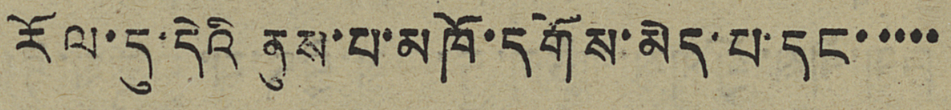རོལ་དུ་དེའི་ནུས་པ་མཁོ་དགོས་མེད་པ་དང་་་་་
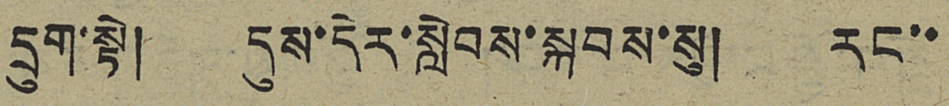དྲུག་སྟེ། དུས་དེར་སླེབས་སྐབས་སུ། རང་་
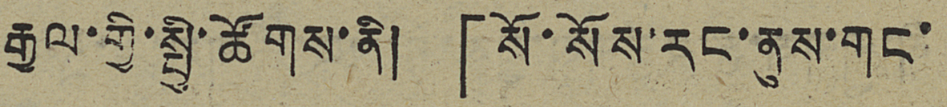རྒྱལ་གྱི་སྤྱི་ཚོགས་ནི།「སོ་སོས་རང་ནུས་གང་
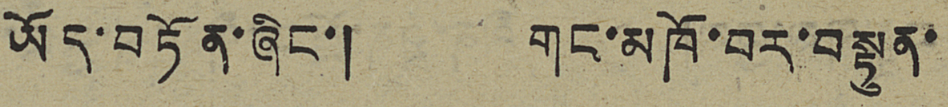ཡོད་བཏོན་ཞིང་། གང་མཁོ་བར་བསྟུན་
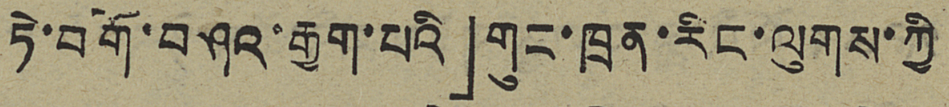ཏེ་བགོ་བཤའ་རྒྱག་པའི་」གུང་ཁྲན་རིང་ལུགས་ཀྱི
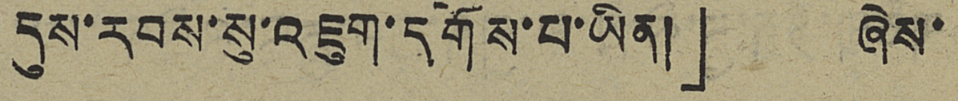དུས་རབས་སུ་འཇུག་དགོས་པཡིན།」 ཞེས་
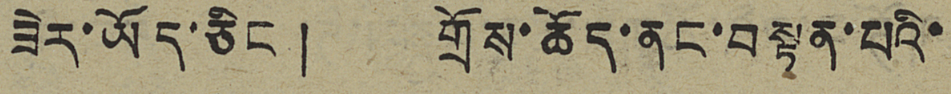ཟེར་ཡོད་ཅིང་། གྲོས་ཆོད་ནང་བསྟན་པའི་
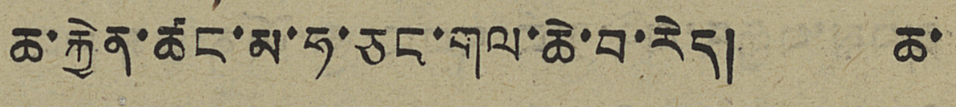ཆ་རྐྱེན་ཚང་མ་ཧ་ཅང་གལ་ཆེ་བ་རེད། ཆ་
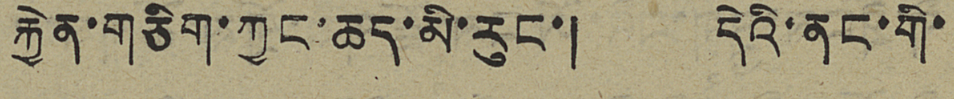རྐྱེན་གཅིག་ཀྱང་ཆད་མི་རུང་། དེའི་ནང་གི་
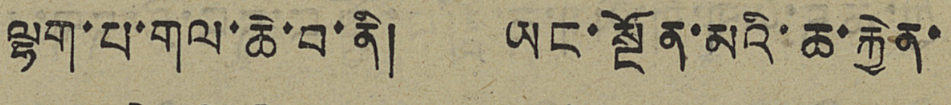ལྷག་པ་གལ་ཆེ་བ་ནི། ཡང་སྔོན་མའི་ཆ་རྐྱེན་
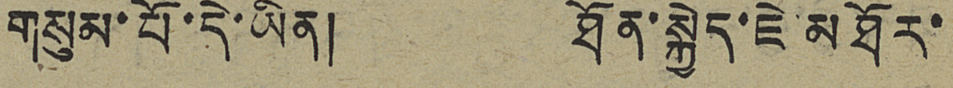གསུམ་པོ་དེ་ཡིན། ཐོན་སྐྱེད་ཇེ་མཐོར་
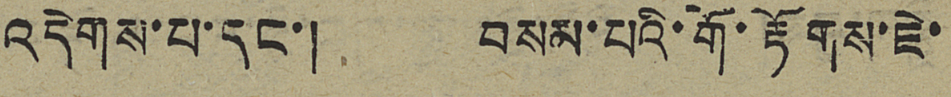འདེགས་པ་དང་། བསམ་པའི་གོ་རྟོགས་ཇེ་
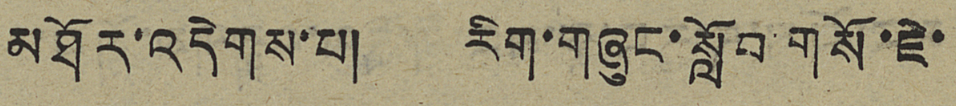མཐོར་འདེགས་པ། རིག་གཞུང་སློབ་གསོ་ཇེ་
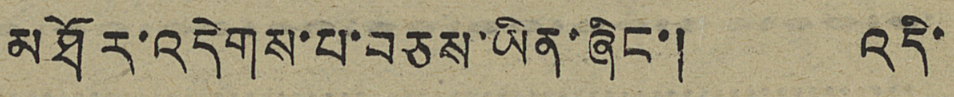མཐོར་འདེགས་པ་བཅས་ཡིན་ཞིང་། འདི་
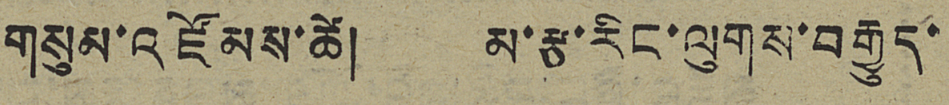གསུམ་འཛོམས་ཚེ། མ་རྩ་རིང་ལུགས་བརྒྱུད་
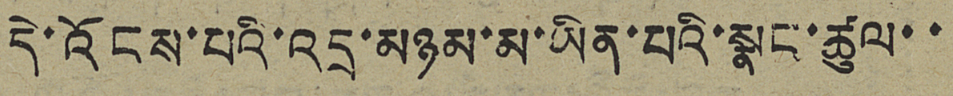དེ་འོངས་པའི་འདྲ་མཉམ་མ་ཡིན་པའི་སྣང་ཚུལ་་
